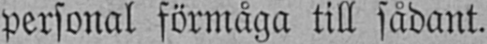personal förmåga till sådant.
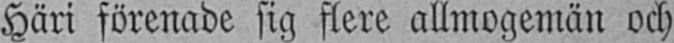Häri förenade sig flere allmogemän och
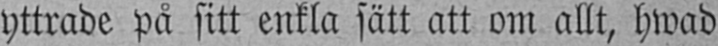yttrade på sitt enkla sätt att om allt, hwad
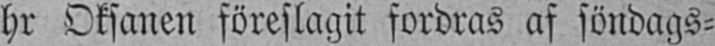hr Oksanen föreslagit fordras af söndags-
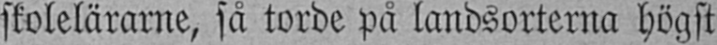skolelärarne, så torde på landsorterna högst
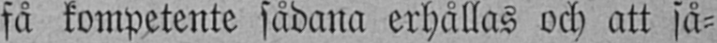få kompetente sådana erhållas och att så-
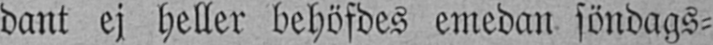dant ej heller behöfdes emedan söndags-
